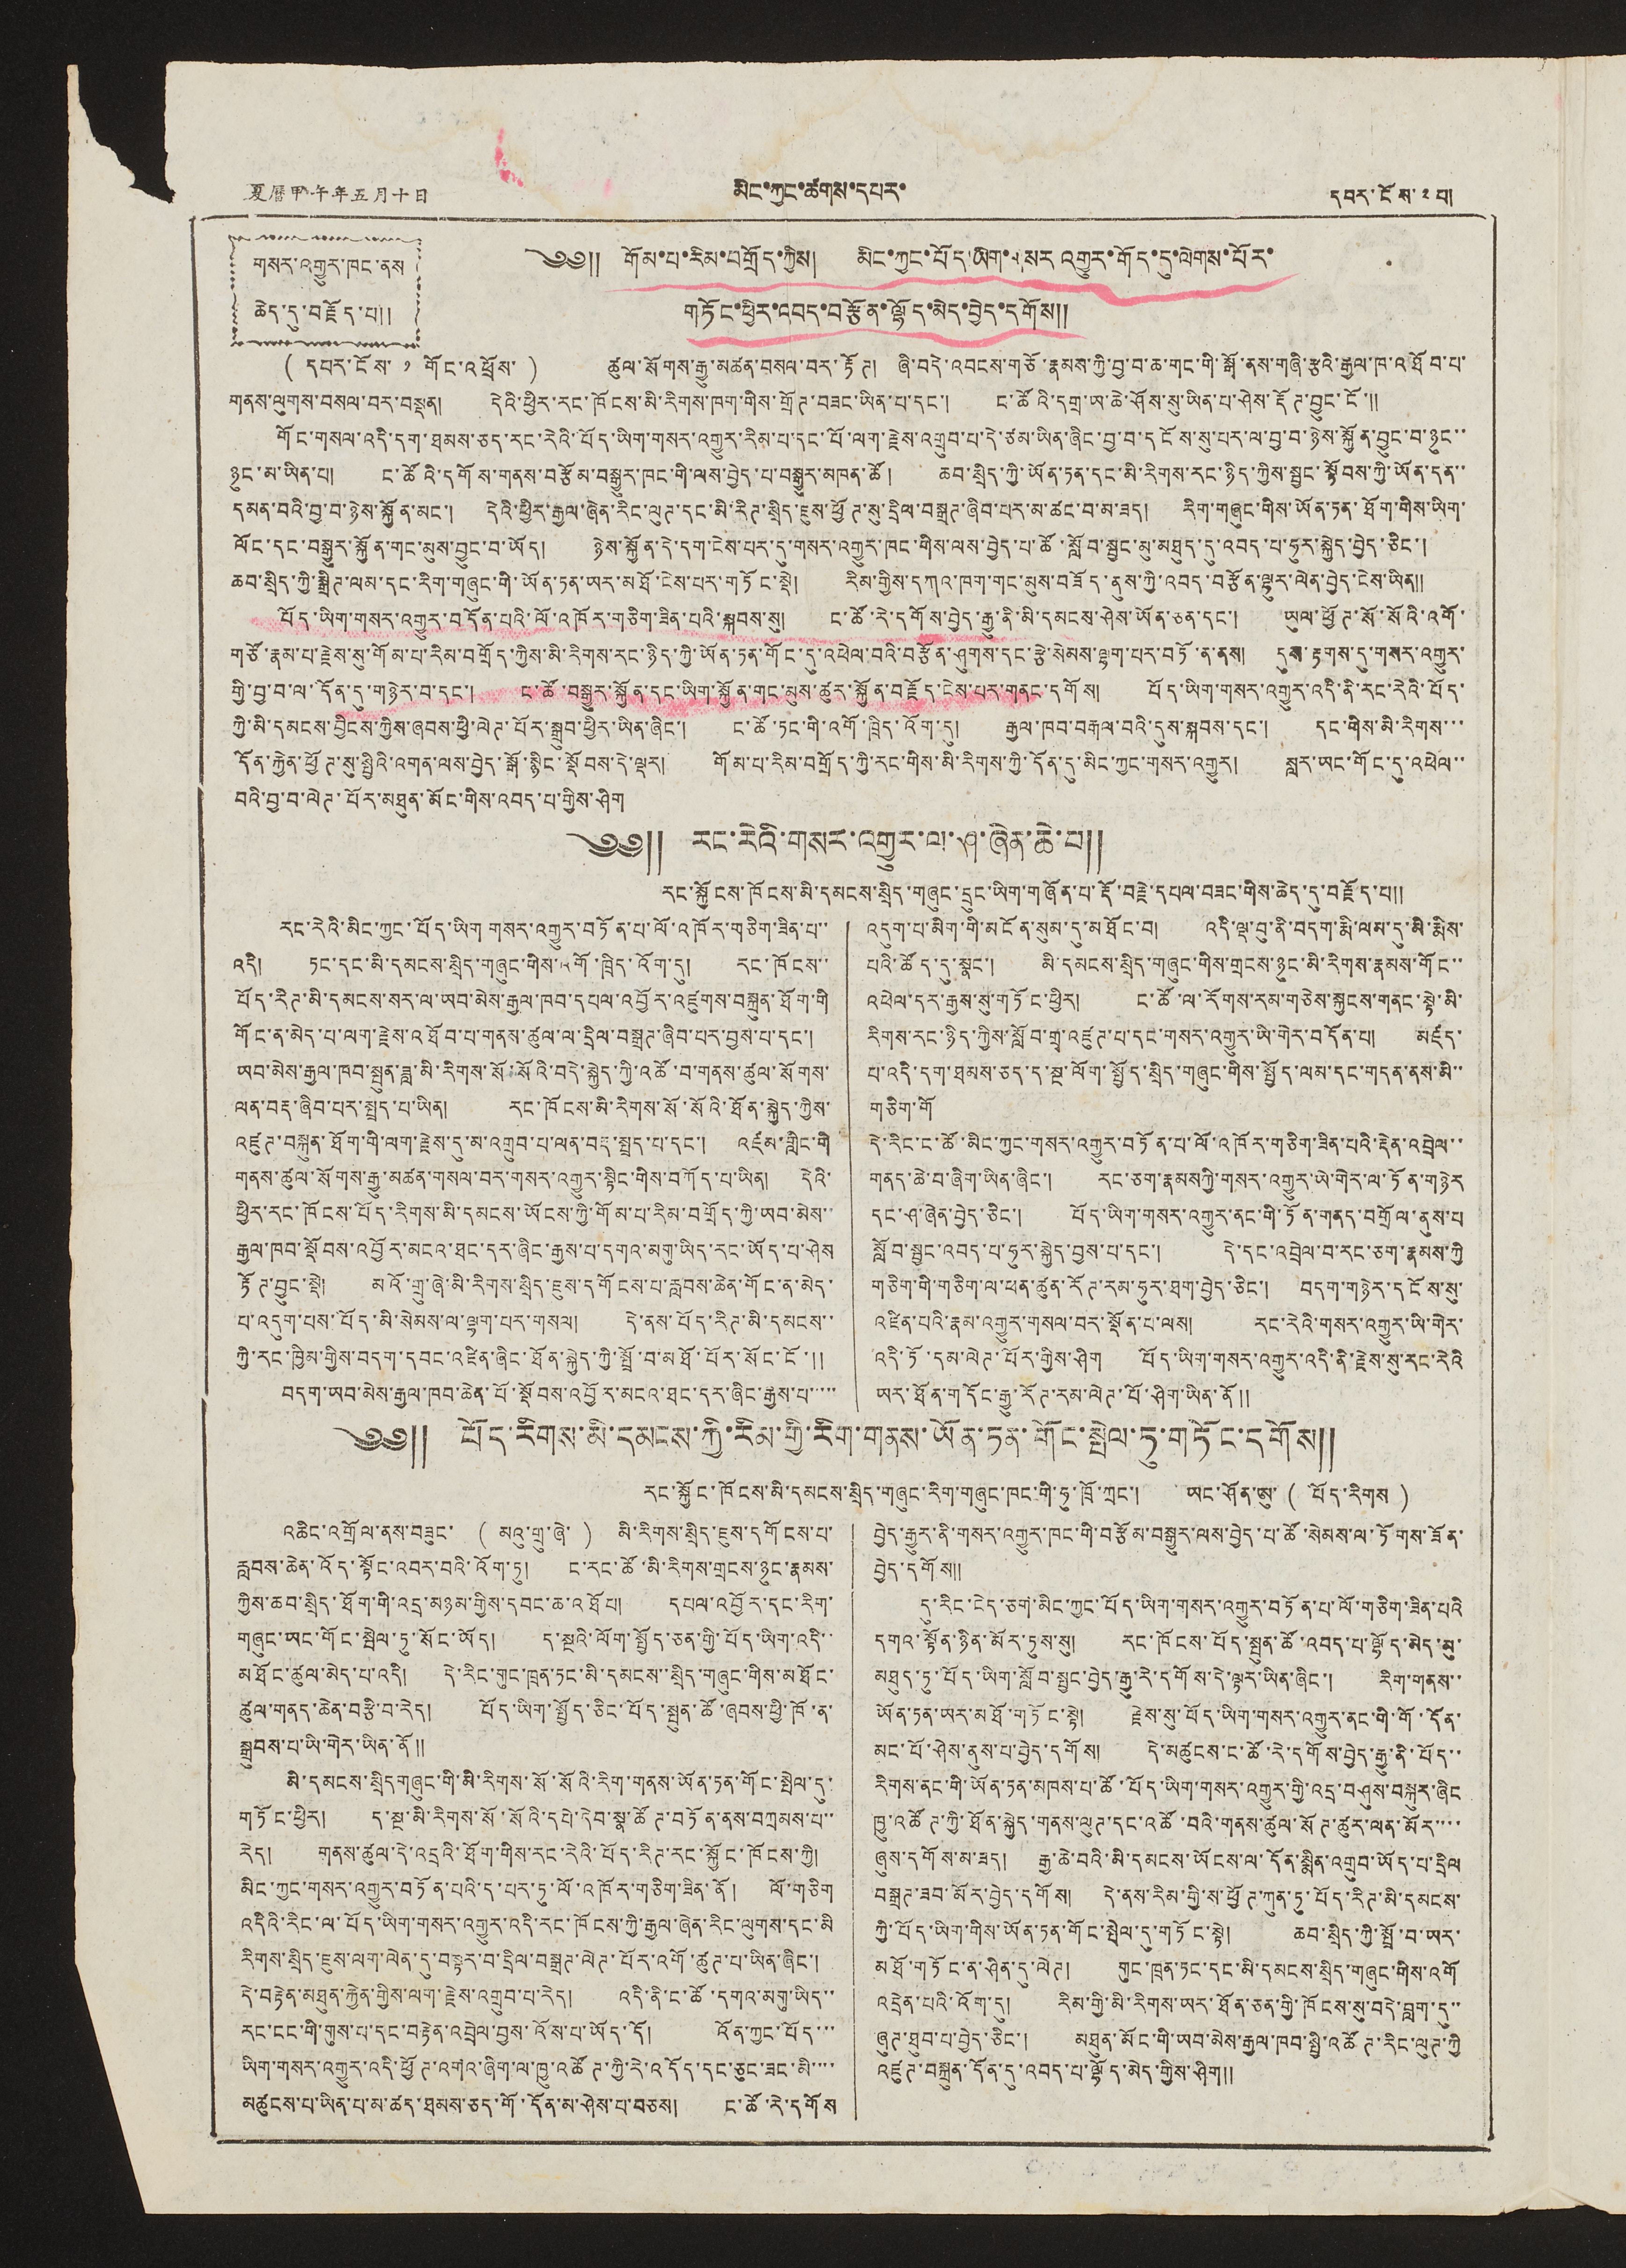夏曆甲午年五月十日 མིང་ཀྱང་ཚགས་དཔར་ དབར་ངོས་ ༢ པ།
གསར་འགྱུར་ཁང་ནས
ཆེད་དུ་བརྗོད་པ༎
༄༅༎ གོམ་པ་རིམ་བགྲོད་ཀྱིས། མིང་ཀྱང་བོད་ཡིག་གསར འགྱུར་གོད་དུ་ལེགས་པོར་
གཏོང་ཕྱིར་འབད་བརྩོན་ལྷོད་མེད་བྱེད་དགོས༎
གནས་ལུགས་བསལ་བར་བསྡན། དེའི་ཕྱིར་རང་ཁོངས་མི་རིགས་ཁག་གིས་གྲོཊ་བཟང་ཡིན་པ་དང་། ང་ཚོའི་དགྲ་ཡ་ཆེ་ཤོས་སུ་ཡིན་པ་ཤེས་རྡོཊ་བྱུང་ངོ་༎
( དཔར་ངོས་ ༡ གོང་འཕྲོས་)
ཚུལ་སོགས་རྒྱུ་མཚན་བསལ་བར་རྟོཊ། ཞི་བདེ་འབངས་གཅོ་རྣམས་ཀྱི་བྱ་བ་ཆ་གང་གི་སྒོ་ནས་གཞི་རྩའི་རྒྱལ་ཁ་འཐོབ་པ་
གོང་གསལ་འདི་དག་ཐམས་ཅད་རང་རེའི་བོད་ཡིག་གསར་འགྱུར་རིམ་པ་དང་པོ་ལག་རྗེས་འགྲུབ་པ་དེ་ཙམ་ཡིན་ཞིང་བྱ་བ་དངོས་སུ་པར་ལ་བྱ་བ་ཉེས་སྐྱོན་བྱུང་བ་ཉུང་་
ཉུང་མ་ཡིན་པ། ང་ཚོའི་དགོས་གནས་བརྩོམ་བསྒྱུར་ཁང་གི་ལས་བྱེད་པ་བསྒྱུར་མཁན་ཚོ། ཆབ་སྲིད་ཀྱི་ཡོན་ཏན་དང་མི་རིགས་རང་ཉིད་ཀྱིས་སྦྱང་སྟོབས་ཀྱི་ཡོན་དན་་
དམན་བའི་བྱ་བ་ཉེས་སྐྱོན་མང་། དེའི་ཕྱིར་རྒྱལ་ཞེན་རིང་ལུཊ་དང་མི་རིཊ་སྲིད་ཇུས་ཕྱོཊ་སུ་དྲིལ་བསྒྲཊ་ཞིབ་པར་མ་ཚང་བ་མ་ཟད། རིག་གཞུང་གིས་ཡོན་ཏན་ཐོག་གིས་ཡིག་
ལོང་དང་བསྒྱུར་སྐྱོན་གང་མུས་བྱུང་བ་ཡོད། ཉེས་སྐྱོན་དེ་དག་ངེས་པར་དུ་གསར་འགྱུར་ཁང་གིས་ལས་བྱེད་པ་ཚོ་སློབ་སྦྱང་མུ་མཐུད་དུ་འབད་པ་ཧུར་སྐྱེད་བྱེད་ཅིང་།
ཆབ་སྲིད་ཀྱི་སྒྲིཊ་ལམ་དང་རིག་གཞུང་གི་ཡོན་ཏན་ཡར་མཐོ་ངེས་པར་གཏོང་སྡེ། རིམ་གྱིས་དཀའ་ཁག་གང་མུས་བཟོད་ནུས་ཀྱི་འབད་བརྩོན་ལྷུར་ལེན་བྱེད་ངེས་ཡིན༎
པོད་ཡིག་གསར་འགྱུར་བདོན་པའི་ལོ་འཁོར་གཅིག་ཟིན་པའི་སྐབས་སུ། ང་ཚོ་རེ་དགོས་བྱེད་རྒྱུ་ནི་མི་དམངས་ཤེས་ཡོན་ཅན་དང་། ཡུལ་ཕྱོཊ་སོ་སོའི་འགོ་
གཙོ་རྣམ་པ་རྗེས་སུ་གོམ་པ་རིམ་བགྲོད་ཀྱིས་མི་རིགས་རང་ཉིད་ཀྱི་ཡོན་ཏན་གོང་དུ་འཕེལ་བའི་བརྩོན་ཤུགས་དང་རྩེ་སེམས་ལྷག་པར་བཏོ་ན་ནས། དུས་རྟགས་དུ་གསར་འགྱུར་
གྱི་བྱ་བ་ལ་དོན་དུ་གཉེར་བ་དང་། ང་ཚོ་བསྒྱུར་སྐྱོན་དང་ཡིག་སྐྱོན་གང་མུས་ཚུར་སྐྱོན་བརྗོད་ངེས་པར་གནང་དགོས། པོད་ཡིག་གསར་འགྱུར་འདི་ནི་རང་རེའི་བོད་
ཀྱི་མི་དམངས་བྱིངས་ཀྱིས་ཞབས་ཕྱི་ལེཊ་པོར་སྒྲུབ་ཕྱིར་ཡིན་ཞིང་། ང་ཚོ་ཏང་གི་འགོ་ཁྲིད་འོག་དུ། རྒྱལ་ཁབ་བརྒལ་བའི་དུས་སྐབས་དང་། དང་གིས་མི་རིགས་་་
དོན་རྐྱེན་ཕྱོཊ་སུ་སྤྱིའི་འགན་ལས་བྱེད་སྒོ་སྙིང་སྡོབས་དེ་ལྡར། གོམ་པ་རིམ་བགྲོད་ཀྱི་རང་གིས་མི་རིགས་ཀྱི་དོན་དུ་མིང་ཀྱང་གསར་འགྱུར། སླར་ཡང་གོང་དུ་འཕེལ་་
བའི་བྱ་བ་ལེཊ་པོར་མཐུན་མོང་གིས་འབད་པ་གྱིས་ཤིག
༄༅༎ རང་རེའི་གསར་འགྱུར་ལ་ཤ་ཞེན་ཆེ་བ༎
རང་སྐྱོངས་ཁོངས་མི་དམངས་སྲིད་གཞུང་དྲུང་ཡིག་གཞོན་པ་རྡོ་བརྗེ་དཔལ་བཟང་གིས་ཆེད་དུ་བརྗོད་པ༎
རང་རེའི་མིང་ཀྱང་པོད་ཡིག གསར་འགྱུར་བཏོན་པ་ལོ་འཁོར་གཅིག་ཟིན་པ་་
འདི། ཏང་དང་མི་དམངས་སྲིད་གཞུང་གིས་འགོ་ཁྲིད་འོག་དུ། རང་ཁོངས་་
པོད་རིཊ་མི་དམངས་སར་ལ་ཡབ་མེས་རྒྱལ་ཁབ་དཔལ་འབྱོར་འཛུགས་བསྐྲུན་ཐོག་གི
གོང་ན་མེད་པ་ལག་རྗེས་འཐོབ་པ་གནས་ཚུལ་ལ་དྲོལ་བསྒྲཊ་ཞིབ་པར་བྱས་པ་དང་།
ཡབ་མེས་རྒྱལ་ཁབ་སྤུན་ཟླ་མི་རིགས་སོ་སོའི་བདེ་སྐྱེད་ཀྱི་འཚོ་བ་གནས་ཚུལ་སོགས་
ལན་བརྡ་ཞིབ་པར་སྤྲད་པ་ཡིན། རང་ཁོངས་མི་རིགས་སོ་སོའི་ཐོན་སྐྱེད་ཀྱིས་
འཛུཊ་བསྐྲུན་ཐོག་གི་ལག་རྗེས་དུ་མ་འགྲུབ་པ་ལན་བརྡ་སྤྲད་པ་དང་། འཛམ་གླིང་གི
གནས་ཚུལ་སོགས་རྒྱུ་མཚན་གསལ་བར་གསར་འགྱུར་སྟིང་གིས་བཀོད་པ་ཡིན། དེའི་
ཕྱིར་རང་ཁོངས་བོད་རིགས་མི་དམངས་ཡོངས་ཀྱི་གོམ་པ་རིམ་བགྲོད་ཀྱི་ཡབ་མེས་་
རྒྱལ་ཁབ་སྡོབས་འབྱོར་མངའ་ཐང་དར་ཞིང་རྒྱས་པ་དགའ་མགུ་ཡིད་རང་ཡོད་པ་ཤེས
རྟོཊ་བྱུང་སྡེ། མའོ་གྲུ་ཞེ་མི་རིགས་སྲིད་ཇུས་དགོངས་པ་རླབས་ཆེན་གོང་ན་མེད་
པ་འདུག་པས་བོད་མི་སེམས་ལ་ལྷག་པར་གསལ། དེ་ནས་པོད་རིཊ་མི་དམངས་་
ཀྱི་རང་ཁྱིམ་གྱིས་བདག་དབང་འཛིན་ཞིང་ཐོན་སྐྱེད་ཀྱི་སྤྲོ་བ་མཐོ་པོར་སོང་ངོ་༎
བདག་ཡབ་མེས་རྒྱལ་ཁབ་ཆེན་པོ་སྡོབས་འབྱོར་མངའ་ཐང་དར་ཞིང་རྒྱས་པ་་་་་་
འདུག་པ་མིག་གི་མངོན་སུམ་དུ་མཐོང་བ། འདི་ལྡ་བུ་ནི་བདག་རྨི་ལམ་དུ་མི་རྨིས་
པའི་ཚོད་དུ་སྣང་། མི་དམངས་སྲིད་གཞུང་གིས་གྲངས་ཉུང་མི་རིགས་རྣམས་གོང་་
འཕེལ་དར་རྒྱས་སུ་གཏོང་ཕྱིར། ང་ཚོ་ལ་རོགས་རམ་གཅེས་སྐྱངས་གནང་སྟེ་མི་
རིགས་རང་ཉིད་ཀྱིས་སློབ་གྲྭ་འཛུཊ་པ་དང་གསར་འགྱུར་ཡི་གེར་བདོན་པ། མཛད་
པ་འདི་དག་ཐམས་ཅད་ད་སྔ་ལོག་སྤྱོད་སྲིད་གཞུང་གིས་སྤྱོད་ལམ་དང་གདན་ནས་མི་་
གཅིག་གོ
དེ་རིང་ང་ཚོ་མིང་ཀྱང་གསར་འགྱུར་བཏོན་པ་ལོ་འཁོར་གཅིག་ཟིན་པའི་རྡེན་འབྲེལ་་
གནད་ཆེ་བ་ཞིག་ཡིན་ཞིང་། རང་ཅག་རྣམས ཀྱི་གསར་འགྱུར་ཡེ་གེར་ལ་ཏོན་གཉེར་
དང་ཤ་ཞེན་བྱེད་ཅིང་། པོད་ཡིག་གསར་འགྱུར་ནང་གི་ཏོན་གནད་བགྲོལ་ནུས་པ
སློབ་སྦྱང་འབད་པ་ཧུར་སྐྱེད་བྱས་པ་དང་། དེ་དང་འབྲེལ་བ་རང་ཅག་རྣམས་ཀྱི
གཅིག་གི་གཅིག་ལ་ཕན་ཚུན་རོཊ་རམ་ཧུར་ཐག་བྱེད་ཅིང་། བདག་གཉེར་དངོས་སུ་
འཛིན་པའི་རྣམ་འགྱུར་གསལ་བར་སྡོན་པ་ལས། རང་རེའི་གསར་འགྱུར་ཡི་གེར་
འདི་ཏོ་དམ་ལེཊ་པོར་གྱིས་ཤིག པོད་ཡིག་གསར་འགྱུར་འདི་ནི་རྗེས་སུ་རང་རེའི
ཡར་ཐོན་གདོང་རྒྱུ་རོཊ་རམ་ལེཊ་པོ་ཤིག་ཡིན་ནོ༎
༄༅༎ པོད་རིགས་མི་དམངས་ཀྱི་རིམ་གྱི་རིག་གནས་ཡོན་ཏན་གོང་སྤེལ་ཏུ་གཏོང་དགོས༎
རང་སྐྱོང་ཁོངས་མི་དམངས་སྲིད་གཞུང་རིག་གཞུང་ཁང་གི་ཧུ་ཁྲོ་ཀྲང་། ཡང་ཤོན་ཨུ་ ( བོད་རིགས )
འཆིང་འགྲོལ་ནས་བཟུང་ ( མའུ་གྲུ་ཞེ་ ) མི་རིགས་སྲིད་ཇུས་དགོངས་པ་
རླབས་ཆེན་འོད་སྟོང་འབར་བའི་འོག་ཏུ། ང་རང་ཚོ་མི་རིགས་གྲངས་ཉུང་རྣམས་
ཀྱིས་ཆབ་སྲིད་ཐོག་གི་འདྲ་མཉམ་གྱིས་དབང་ཆ་འཐོཔ། དཔལ་འབྱོར་དང་རིག་
གཞུང་ཡང་གོང་སྤེལ་ཏུ་སོང་ཡོད། ད་སྔའི་ལོག་སྤྱོད་ཅན་གྱི་པོད་ཡིག་འདི་་
མཐོང་ཚུལ་མེད་པ་འདི། དེ་རིང་གུང་ཁྲན་ཏང་མི་དམངས་་སྲིད་གཞུང་གིས་མཐོང་
ཚུལ་གནད་ཆེན་བརྩི་བ་རེད། པོད་ཡིག་སྤྱོད་ཅིང་བོད་སྤུན་ཚོ་ཞབས་ཕྱི་ཁོ་ན་
སྒྲུབས་པ་ཡི་གེར་ཡིན་ནོ༎
མི་དམངས་སྲིད གཞུང་གི་མི་རིགས་སོ་སོའི་རིག་གནས་ཡོན་ཏན་གོང་སྤེལ་དུ་
གཏོང་ཕྱིར། ད་སྔ་མི་རིགས་སོ་སོའི་དཔེ་དེབ་སྣ་ཚོཊ་བཏོན་ནས་བཀྲམས་པ་་
རེད། གནས་ཚུལ་དེ་འདྲའི་ཐོག་གིས་རང་རེའི་པོད་རིཊ་རང་སྐྱོང་ཁོངས་ཀྱི།
མིང་ཀྱང་གསར་འགྱུར་བཏོན་པའི་ད་པར་ཏུ་ལོ་འཁོར་གཅིག་ཟིན་ནོ། ལོ་གཅིག
འདིའི་རིང་ལ་པོད་ཡིག་གསར་འགྱུར་འདི་རང་ཁོངས་ཀྱི་རྒྱལ་ཞེན་རིང་ལུགས་དང་མི
རིགས་སྲིད་ཇུས་ལག་ལེན་དུ་བསྟར་བ་དྲིལ་བསྒྲཊ་ལེཊ་པོར་འགོ་ཚུཊ་པ་ཡིན་ཞིང་།
དེ་བརྟེན་མཐུན་རྐྱེན་གྱིས་ལག་རྗེས་འགྲུབ་པ་རེད། འདི་ནི་ང་ཚོ་དགའ་མགུ་ཡིད་་
རང་ངང་གི་གུས་པ་དང་བརྟེན་འབྲེལ་བྱས་འོས་པ་ཡོད་དོ། འོན་ཀྱང་པོད་་་
ཡིག་གསར་འགྱུར་འདི་ཕྱོཊ་འགའ་ཞིག་ལ་ཁྱུ་འཚོཊ་ཀྱི་རེ་འདོད་དང་ཅུང་ཟང་མི་་་་
མཚུངས་པ་ཡིན་པ་མ་ཚད་ཐམས་ཅད་གོ་དོན་མ་ཤེས་པ་བཅས། ང་ཚོ་རེ་དགོས
བྱེད་རྒྱུར་ནི་གསར་འགྱུར་ཁང་གི་བརྩོམ་བསྒྱུར་ལས་བྱེད་པ་ཚོ་སེམས་ལ་ཏོགས་ཟོན་
བྱེད་དགོས༎
ད་རིང་ངེད་ཅག་མིང་ཀྱང་པོད་ཡིག་གསར་འགྱུར་བཏོན་པ་ལོ་གཅིག་ཟིན་པའི
དགའ་སྟོན་ཉིན་མོར་ཏུས་སུ། རང་ཁོངས་པོད་སྤུན་ཚོ་འབད་པ་ལྷོད་མེད་མུ་
མཐུད་ཏུ་པོད་ཡིག་སློབ་སྦྱང་བྱེད་རྒྱུ་རེ་དགོས་དེ་ལྟར་ཡིན་ཞིང་། རིག་གནས་་
ཡོན་ཏན་ཡར་མཐོ་གཏོང་སྟེ། རྗེས་སུ་པོད་ཡིག་གསར་འགྱུར་ནང་གི་གོ་དོན་
མང་པོ་ཤེས་ནུས་པ་བྱེད་དགོས། དེ་མཚུངས་ང་ཚོ་རེ་དགོས་བྱེད་རྒྱུ་ནི་པོད་་
རིགས་ནང་གི་ཡོན་ཏན་མཁས་པ་ཚོ་པོད་ཡིག་གསར་འགྱུར་གྱི་འདྲ་བཤུས་བསྐུར་ཞིང
ཁྱུ་འཚོཊ་ཀྱི་ཐོན་སྐྱེད་གནས་ལུཊ་དང་འཚོ་བའི་གནས་ཚུལ་སོཊ་ཚུར་ལན་མོར་་་་
ཞུས་དགོས་མ་ཟད། རྒྱ་ཆེ་བའི་མི་དམངས་ཡོངས་ལ་དོན་སྨིན་འགྲུབ་ཡོད་པ་དྲིལ
བསྒྲཊ་ཟབ་མོར་བྱེད་དགོས། དེ་ནས་རིམ་གྱི་ས་ཕྱོཊ་ཀུན་ཏུ་པོད་རིཊ་མི་དམངས་
ཀྱི་པོད་ཡིག་གིས་ཡོན་ཏན་གོང་སྤེལ་དུ་གཏོང་སྟེ། ཆབ་སྲིད་ཀྱི་སྤྲོ་བ་ཡར་
མཐོ་གཏོང་ན་ཤིན་དུ་ལེཊ། གུང་ཁྲན་ཏང་དང་མི་དམངས་སྲིད་གཞུང་གིས་འགོ
འདྲེན་པའི་འོག་དུ། རིམ་གྱི་མི་རིགས་ཡར་ཐོན་ཅན་གྱི་ཁོངས་སུ་བདེ་བླག་དུ་་
ཞུཊ་ཐུབ་པ་བྱེད་ཅིང་། མཐུན་མོང་གི་ཡབ་མེས་རྒྱལ་ཁབ་སྤྱི་འཚོཊ་རིང་ལུཊ་ཀྱི
འཛུཊ་བསྐྲུན་དོན་དུ་འབད་པ་ལྷོད་མེད་གྱིས་ཤིག༎
